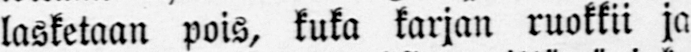lasketaan pois, kuka karjan ruokkii ja
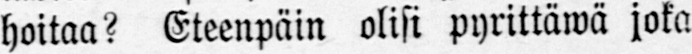hoitaa? Eteenpäin olisi pyrittäwä joka
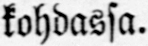kohdassa.
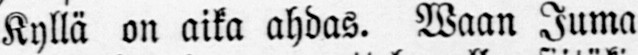Kyllä on aika ahdas. Waan Juma-
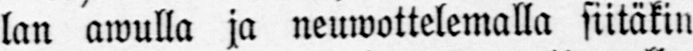lan awulla ja neuwottelemalla siitäkin
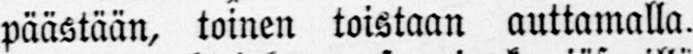päästään, toinen toistaan auttamalla.
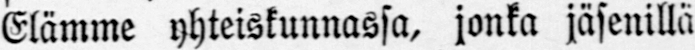Elämme yhteiskunnassa, jonka jäsenillä
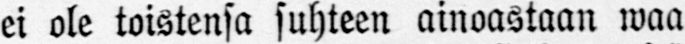ei ole toistensa suhteen ainoastaan waa-
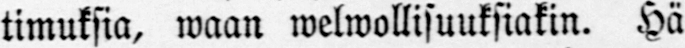timuksia, waan welwollisuuksiakin. Hä-
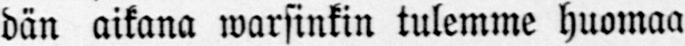dän aikana warsinkin tulemme huomaa-
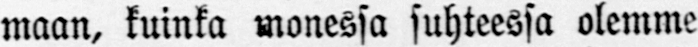maan, kuinka monessa suhteessa olemme
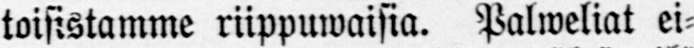toisistamme riippuwaista. Palweliat ei-
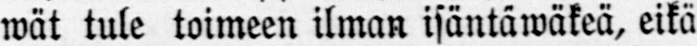wät tule toimeen ilman isäntäwäkeä, eikä
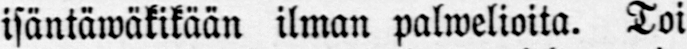isäntäwäkikään ilman palwelioita. Toi-
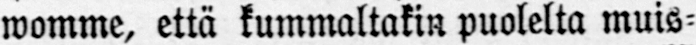womme, että kummaltakin puolelta muis-
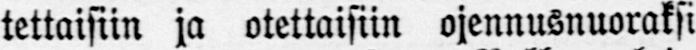tettaisiin ja otettaisiin ojennusnuoraksi
